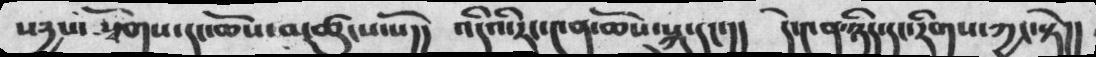སདྱས་ སྭོགས་དང་ཆོས་མཚུངས་སོ།།  འདིའི་རང་༤ན་ཆོས་སྐུ་དང་།།  དེ་༤ན་ཉིད་དང་རིགས་ཀྱང་སྟེ།།
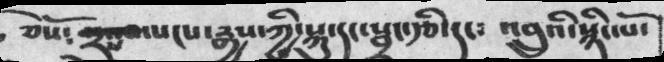ཅེསོ༴  གྲངས་སངས་རྒྱས་ཀྱི་སྐུ་དང་སྦྲང་རྩི་དང་  འབྲུའི་སྙིང་པོ་
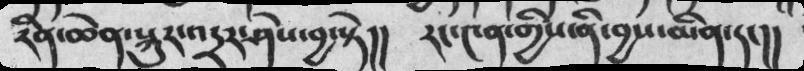རིན་ཆེན་སྐུར་འདྲར་ཤེས་བྱ་སྟེ།།  རང་༤ན་གྱིས་ནི་བྱས་མིན་དང།།
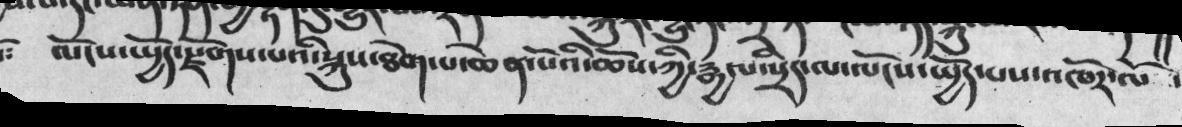༴    ལོངས་སྤྱོད་རྫོགས་པའི་སྐུས་ཐེག་པ་ཆེན་པོའི་ཆོས་ཀྱི་རྒྱལ་སྲིད་ལ་ལོངས་སྤྱོད་པས་འཁོར་ལོ ་
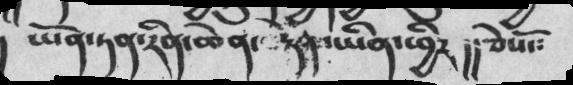ཡོན་ཏན་རིན་ཆེན་རྟེན་ཡིན་ཕྱིར།།  ཅེསོ༴
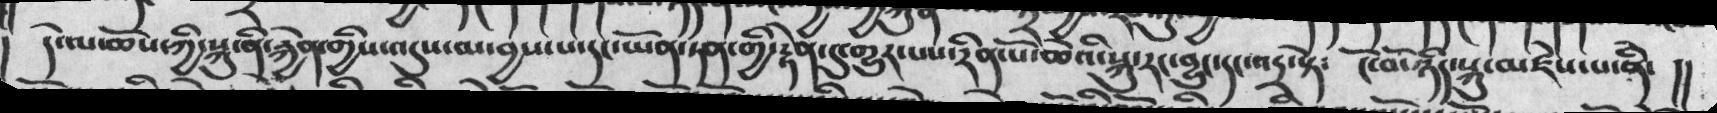དེ་ལ་ཆོས་ཀྱི་སྐུ་ནི་རྐྱེན་གྱིས་འདུས་མ་བྱས་པ་དང་ཡོན་ཏན་གྱི་རྟེན་དུ་གྱུར་པས་རིན་པོ་ཆེའི་སྐུ་རང་བྱུང་དང་འདྲ་སྟེ༴   ངོ་བོ་ཉིད་སྐུ་མཛེས་པ་ནི་  །།
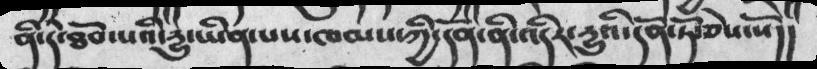ནི་དེ་ཐོབ་པའི་རྱུ་ཡིན་པས་ཁམས་ཀྱི་དོན་ནི་འདིར་རྱུ་ཡིན་པས་ཁམས་ཀྱི་དོན་ནི་འདིར་རྱུའི་དོན་ཏོ་ཅེས་སོ།།
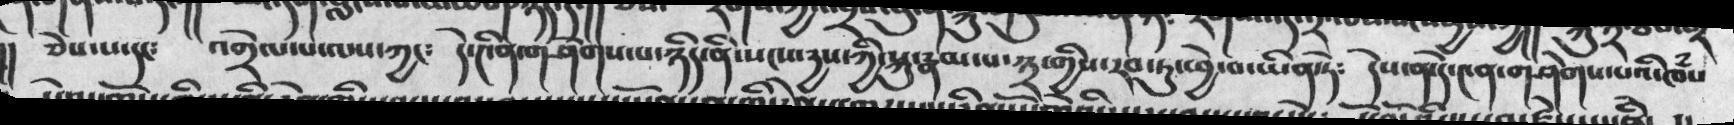།།  ཅེས་པ་དང་    འགྲེལ་པ་ལས་ཀྱང༴    དེ་༤ིན་གཤེགས་པ་ཉིད་ནི་སངས་དྱས་ཀྱི་སྐུ་རྣམ་པ་༣་གྱིས་རབ་ཏུ་ཕྱེ་བ་ཡིན་ཏེ༴   དེས་ན་དེ་༤ན་གཤེགས་པའི་ཁཾས
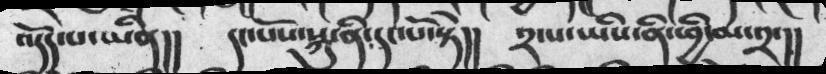འདོད་པ་ཡིན།།   དང་པོས་སྐུ་ནི་དང་པོ་སྟེ།།   ༢་པ་ཡིས་ནི་ཕྱི་མ་༢་།།
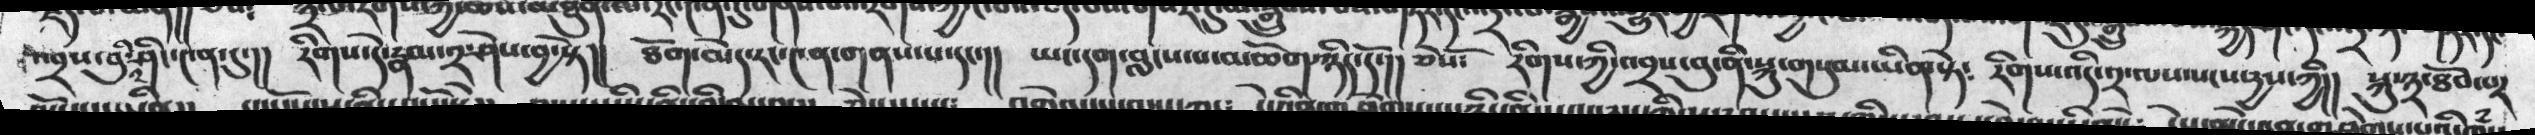འབྲས་བུའི་ཤིང་༤ན་དུ་།།  རིགས་དེ་རྣམ་༢་ཤེས་བྱ་སྟེ།།   ཐོག་མེད་རང་༤ན་གནས་པ་དང་།།  ཡང་དག་བླངས་པ་མཆོག་ཉིད་དོ་།། ཅེསོ༴   རིགས་ཀྱི་འབྲས་བུ་ནི་སྐུ་གསུམ་ཡིན་སྟེ༴  རིགས་འདི་༢་ལས་སངས་དྱས་ཀྱི།།  སྐུ་༣་ཐོབ་པར
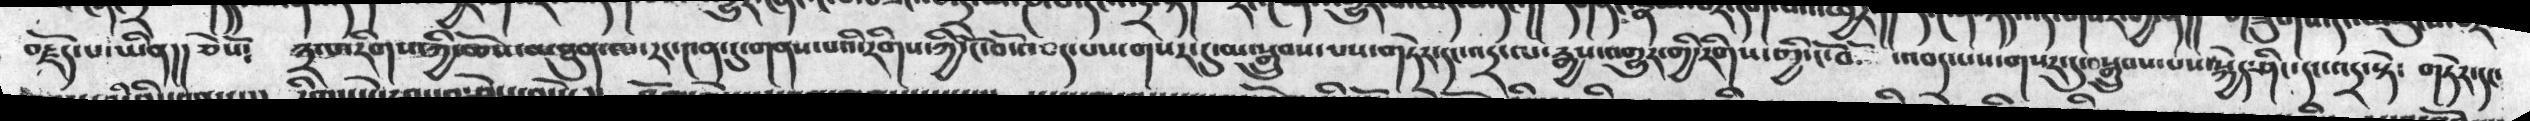བརྗོད་པ་ཡིན།།  ཅེསོ༴  ༣་པ་རིགས་ཀྱི་ཆོས་མཐུན་ལ་རང་༤ན་དུ་གནས་པའི་རིགས་ཀྱི་ངོ་བོས་བར་ལ་གསར་དུ་མ་སྒྲུབས་པས་གསེར་དང་འདྲ་ལ་རྒྱས་འགྱུར་གྱི་རིགས་ཀྱི་ངོ་བོ་འབད་པས་གསར་དུ་བསྒྲུབས་པས་སྐྱེད་ཤིང་དངའདྲ་སྟེ༴  གཏེར་དང་
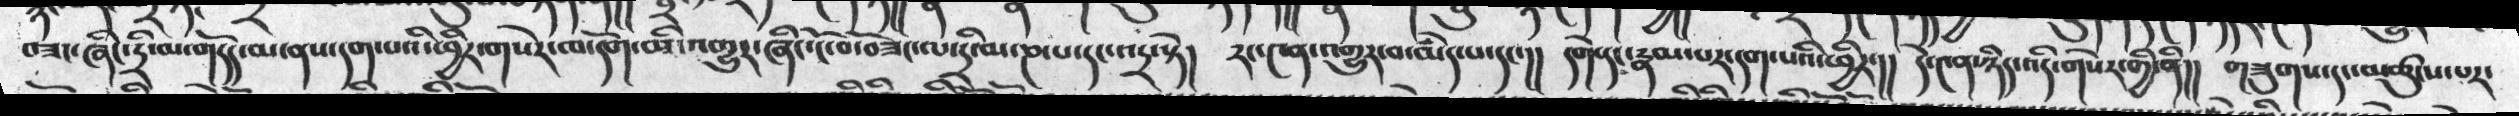བཟང་ཞིང་དྲི་མ་གདོད་མ་ནས་དག་པའི་ཕྱིར་གསེར་ལ་དོག་མི་འགྱུར་ཞིང་ངོ་བོ་བཟང་ལ་དྲི་མ་ཎ་པ་དང་འདྲ་སྟེ།  རང་༤ན་འགྱུར་བ་མེད་པ་དང་།།  དགེ་དང་རྣམ་པར་དག་པའི་ཕྱིར་།།  དེ་༤ན་ཉིད་འདི་གསེར་གྱི་ནི།།  གཟུགས་དང་མཚུངས་པར་
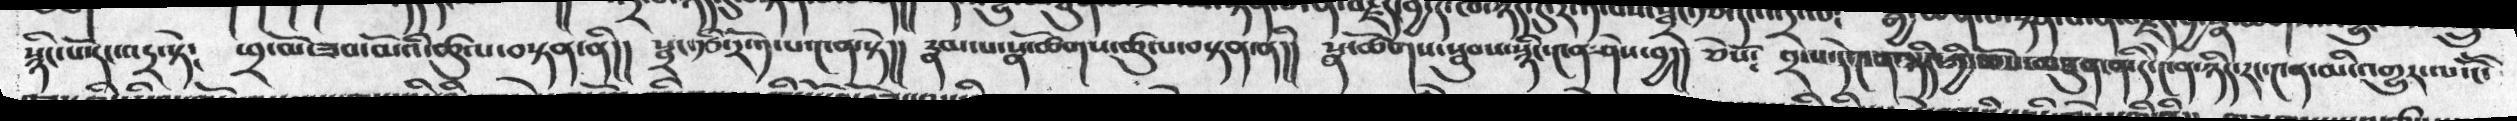སྙིང་པོ་རང་འདྲ་སྟེ༴  ཕྲ་མོ་ཟབ་མོའི་ཚུལ་བསྟན་ནི།། སྦྲང་རྩི་རོ་༡་པ་༤ན་སྟེ།།   རྣམ་པ་སྣ་ཚོགས་ཚུལ་བསྟན་ནི།།  སྣ་ཚོགས་སྦུབས་སྙིང་༤ན་ཤེས་བྱ།།  ཅེསོ༴  ༢་པ་དེ་༤ན་ཉིད་ཀྱི་ཆོས་མཐུན་ན་དེ་༤ན་ཉིད་རང་༤ན་མི་འགྱུར་ལ་ངོོ་
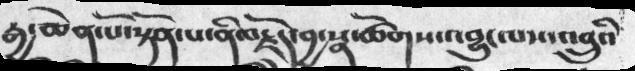རྒྱ་ཆེན་པོ་སྟོན་པ་ནི་བརྗོད་བྱ་སྣ་ཚོགས་འབྱུང་པས་འབྲུའི
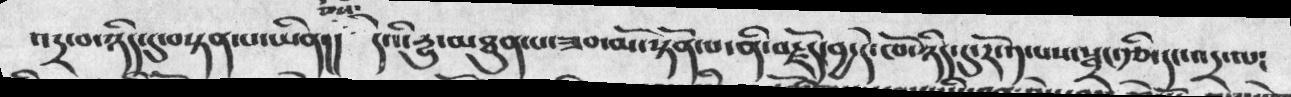འདྲ་བ་ཉིདདུ་བསྟན་པ་ཡིན།།  ཅེས་དེའི་དྱུ་མཐུན་པ་ཟབ་མོ་སྟོན་པ་ནི་བརྗོད་བྱ་དེ་ཁོ་ཉིད་དུ་རོ༡་པས་སྦྲང་རྩི་དང་འདྲ་ལ༴
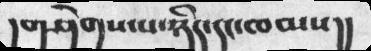།གཤེགས་པ་ཉིད་དང་ཁམས།།
